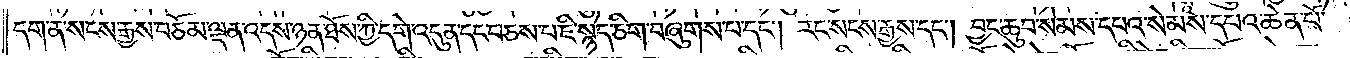དག་ན་སངས་རྒྱས་བཅོམ་ལྡན་འདས་ཉན་ཐོས་ཀྱི་དགེ་འདུན་དང་བཅས་པ་ཇི་སྙེད་ཅིག་བཞུགས་པ་དང༌། རང་སངས་རྒྱས་དང༌། བྱང་ཆུབ་སེམས་དཔའ་སེམས་དཔའ་ཆེན་པོ་
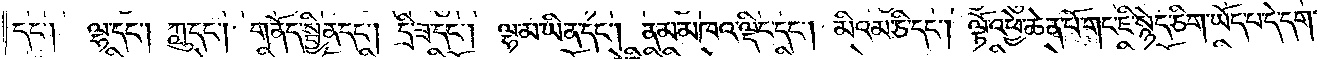དང༌། ལྷ་དང༌། ཀླུ་དང༌། གནོད་སྦྱིན་དང༌། དྲི་ཟ་དང༌། ལྷ་མ་ཡིན་དང༌། ནམ་མཁའ་ལྡིང་དང༌། མིའམ་ཅི་དང༌། ལྟོ་འཕྱེ་ཆེན་པོ་གང་ཇི་སྙེད་ཅིག་ཡོད་པ་དེ་དག་
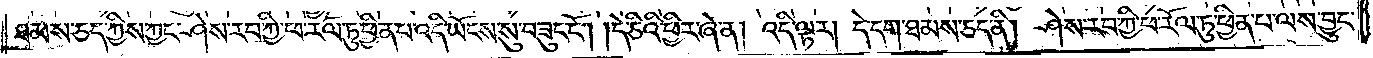ཐམས་ཅད་ཀྱིས་ཀྱང་ཤེས་རབ་ཀྱི་ཕ་རོལ་ཏུ་ཕྱིན་པ་འདི་ཡོངས་སུ་བཟུང་ངོ༌། །དེ་ཅིའི་ཕྱིར་ཞེ་ན། འདི་ལྟར། དེ་དག་ཐམས་ཅད་ནི། ཤེས་རབ་ཀྱི་ཕ་རོལ་ཏུ་ཕྱིན་པ་ལས་བྱུང་
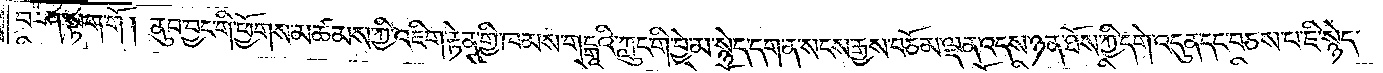བ་ཤ་སྟག་གོ །ནུབ་བྱང་གི་ཕྱོགས་མཚམས་ཀྱི་འཇིག་རྟེན་གྱི་ཁམས་གངྒཱའི་ཀླུང་གི་བྱེ་མ་སྙེད་དག་ན་སངས་རྒྱས་བཅོམ་ལྡན་འདས་ཉན་ཐོས་ཀྱི་དགེ་འདུན་དང་བཅས་པ་ཇི་སྙེད་
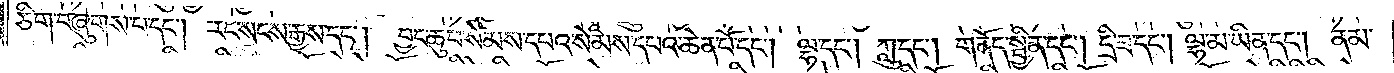ཅིག་བཞུགས་པ་དང༌། རང་སངས་རྒྱས་དང༌། བྱང་ཆུབ་སེམས་དཔའ་སེམས་དཔའ་ཆེན་པོ་དང༌། ལྷ་དང༌། ཀླུ་དང༌། གནོད་སྦྱིན་དང༌། དྲི་ཟ་དང༌། ལྷ་མ་ཡིན་དང༌། ནམ་
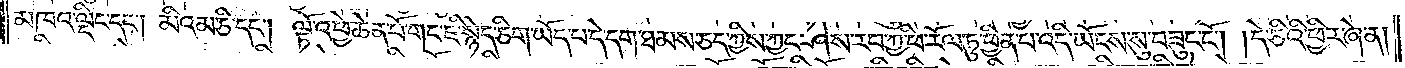མཁའ་ལྡིང་དང༌། མི་འམ་ཅི་དང༌། ལྟོ་འཕྱེ་ཆེན་པོ་གང་ཇི་སྙེད་ཅིག་ཡོད་པ་དེ་དག་ཐམས་ཅད་ཀྱིས་ཀྱང་ཤེས་རབ་ཀྱི་ཕ་རོལ་ཏུ་ཕྱིན་པ་འདི་ཡོངས་སུ་བཟུང་ངོ༌། །དེ་ཅིའི་ཕྱིར་ཞེ་ན།
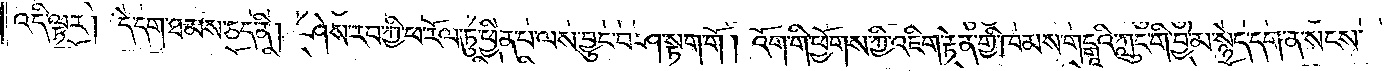འདི་ལྟར། དེ་དག་ཐམས་ཅད་ནི། ཤེས་རབ་ཀྱི་ཕ་རོལ་ཏུ་ཕྱིན་པ་ལས་བྱུང་བ་ཤ་སྟག་གོ །འོག་གི་ཕྱོགས་ཀྱི་འཇིག་རྟེན་གྱི་ཁམས་གངྒཱའི་ཀླུང་གི་བྱེ་མ་སྙེད་དག་ན་སངས་
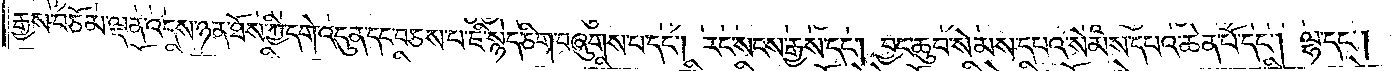རྒྱས་བཅོམ་ལྡན་འདས་ཉན་ཐོས་ཀྱི་དགེ་འདུན་དང་བཅས་པ་ཇི་སྙེད་ཅིག་བཞུགས་པ་དང༌། རང་སངས་རྒྱས་དང༌། བྱང་ཆུབ་སེམས་དཔའ་སེམས་དཔའ་ཆེན་པོ་དང༌། ལྷ་དང༌།
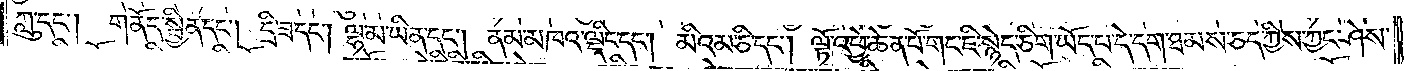ཀླུ་དང༌། གནོད་སྦྱིན་དང༌། དྲི་ཟ་དང༌། ལྷ་མ་ཡིན་དང༌། ནམ་མཁའ་ལྡིང་དང༌། མིའམ་ཅི་དང༌། ལྟོ་འཕྱེ་ཆེན་པོ་གང་ཇི་སྙེད་ཅིག་ཡོད་པ་དེ་དག་ཐམས་ཅད་ཀྱིས་ཀྱང་ཤེས་
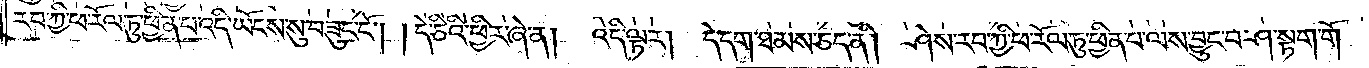རབ་ཀྱི་ཕ་རོལ་ཏུ་ཕྱིན་པ་འདི་ཡོངས་སུ་བཟུང་ངོ༌། །དེ་ཅིའི་ཕྱིར་ཞེ་ན། འདི་ལྟར། དེ་དག་ཐམས་ཅད་ནི། ཤེས་རབ་ཀྱི་ཕ་རོལ་ཏུ་ཕྱིན་པ་ལས་བྱུང་བ་ཤ་སྟག་གོ །
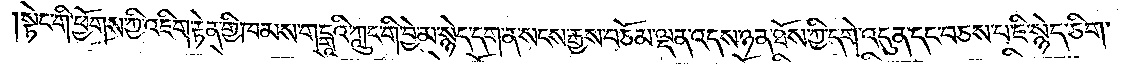སྟེང་གི་ཕྱོགས་ཀྱི་འཇིག་རྟེན་གྱི་ཁམས་གངྒཱའི་ཀླུང་གི་བྱེ་མ་སྙེད་དག་ན་སངས་རྒྱས་བཅོམ་ལྡན་འདས་ཉན་ཐོས་ཀྱི་དགེ་འདུན་དང་བཅས་པ་ཇི་སྙེད་ཅིག་
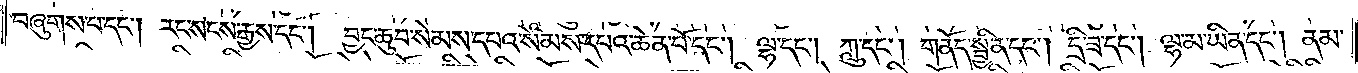བཞུགས་པ་དང༌། རང་སངས་རྒྱས་དང༌། བྱང་ཆུབ་སེམས་དཔའ་སེམས་དཔའ་ཆེན་པོ་དང༌། ལྷ་དང༌། ཀླུ་དང༌། གནོད་སྦྱིན་དང༌། དྲི་ཟ་དང༌། ལྷ་མ་ཡིན་དང༌། ནམ་
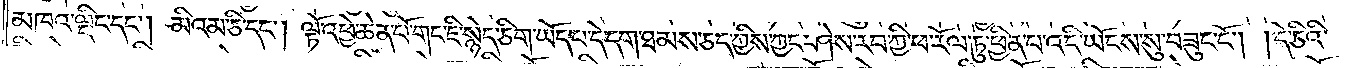མཁའ་ལྡིང་དང༌། མིའམ་ཅི་དང༌། ལྟོ་འཕྱེ་ཆེན་པོ་གང་ཇི་སྙེད་ཅིག་ཡོད་པ་དེ་དག་ཐམས་ཅད་ཀྱིས་ཀྱང་ཤེས་རབ་ཀྱི་ཕ་རོལ་ཏུ་ཕྱིན་པ་འདི་ཡོངས་སུ་བཟུང་ངོ༌། །དེ་ཅིའི་
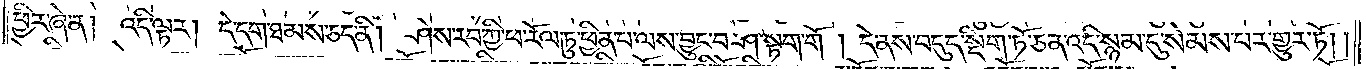ཕྱིར་ཞེ་ན། འདི་ལྟར། དེ་དག་ཐམས་ཅད་ནི། ཤེས་རབ་ཀྱི་ཕ་རོལ་ཏུ་ཕྱིན་པ་ལས་བྱུང་བ་ཤ་སྟག་གོ །དེ་ནས་བདུད་སྡིག་ཏོ་ཅན་འདི་སྙམ་དུ་སེམས་པར་གྱུར་ཏོ། །
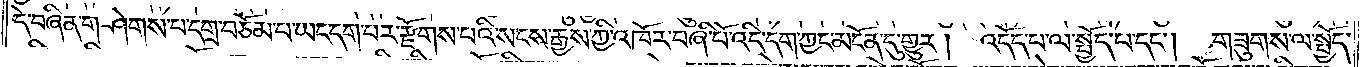དེ་བཞིན་གཤེགས་པ་དགྲ་བཅོམ་པ་ཡང་དག་པར་རྫོགས་པའི་སངས་རྒྱས་ཀྱི་འཁོར་བཞི་པོ་འདི་དག་ཀྱང་མངོན་དུ་གྱུར། འདོད་པ་ལ་སྤྱོད་པ་དང༌། གཟུགས་ལ་སྤྱོད་
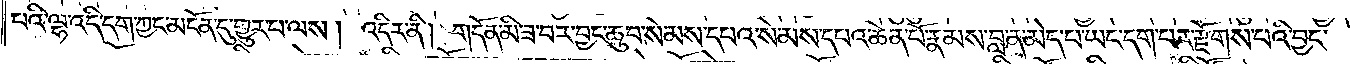པའི་ལྷ་འདི་དག་ཀྱང་མངོན་དུ་གྱུར་བ་ལས། འདིར་ནི། གདོན་མི་ཟ་བར་བྱང་ཆུབ་སེམས་དཔའ་སེམས་དཔའ་ཆེན་པོ་རྣམས་བླ་ན་མེད་པ་ཡང་དག་པར་རྫོགས་པའི་བྱང་
